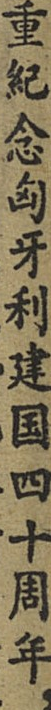重紀念匈牙利建国四十周年，
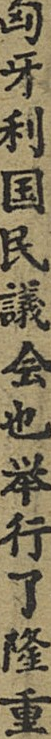△匈牙利国民議会也举行了隆重
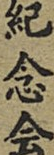紀念会
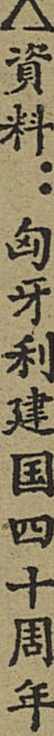△資料：匈牙利建国四十周年
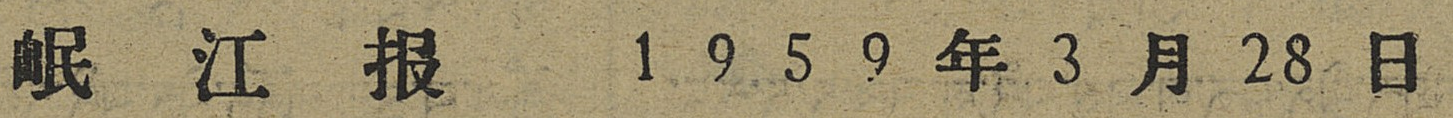岷 江 报 1 9 5 9 年 3 月 28 日
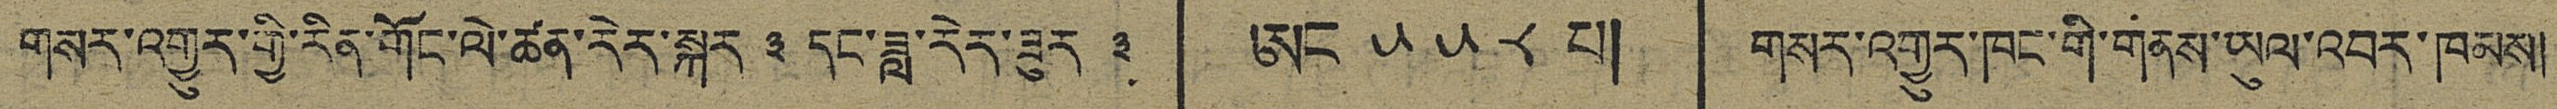གསར་འགྱུར་གྱི་རིན་གོང་ལེ་ཚན་རེར་སྐར ༣ དང་ཟླ་རེར་ཟུར ༣ ཨང ༥༥༨ པ། གསར་འགྱུར་ཁང་གི་གནས་ཡུལ་འབར་ཁམས།
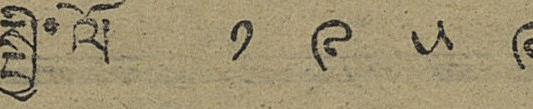སྤྱི་ལོ ༡ ༩ ༥ ༩
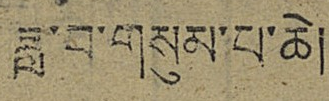ཟླ་བ་གསུམ་པ་ཆེ།
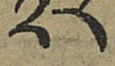༢༨
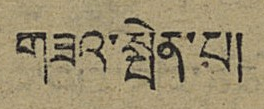གཟའ་སྤེན་པ།
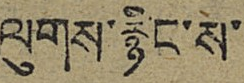ལུགས་རྙིང་ས་
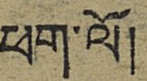ཕག་ལོ།
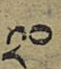༢༠
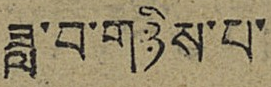ཟླ་བ་གཉིས་པ་
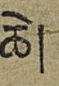ཆེ།
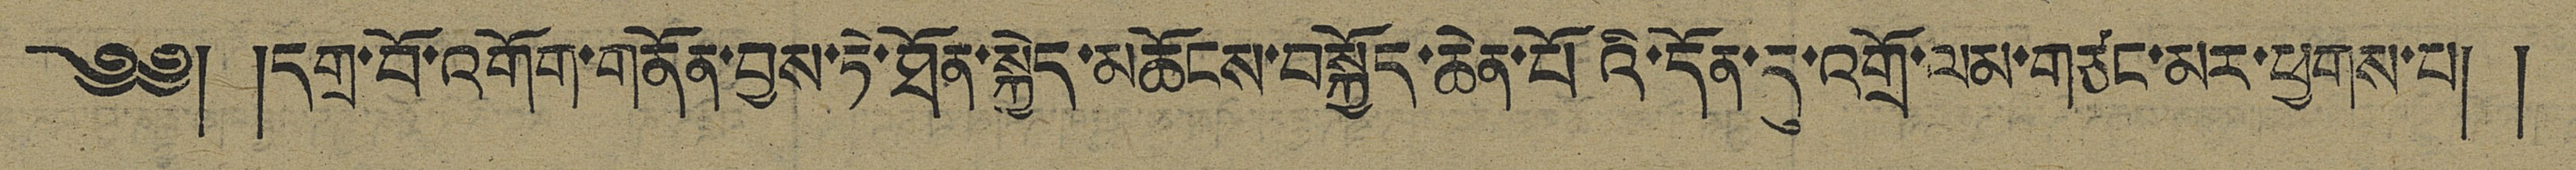༄༅། །དགྲ་བོ་འགོག་གནོན་བྱས་ཏེ་ཐོན་སྐྱེད་མཆོངས་བསྐྱོད་ཆེན་པོའི་དོན་དུ་འགྲོ་ལམ་གཙང་མར་ཕྱགས་པ། །
